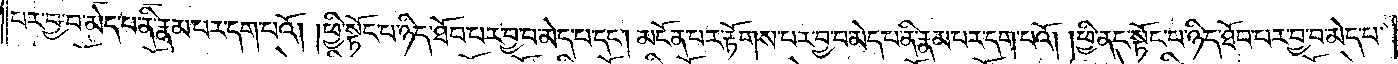པར་བྱ་བ་མེད་པ་ནི་རྣམ་པར་དག་པའོ། །ཕྱི་སྟོང་པ་ཉིད་ཐོབ་པར་བྱ་བ་མེད་པ་དང༌། མངོན་པར་རྟོགས་པར་བྱ་བ་མེད་པ་ནི་རྣམ་པར་དག་པའོ། །ཕྱི་ནང་སྟོང་པ་ཉིད་ཐོབ་པར་བྱ་བ་མེད་པ་
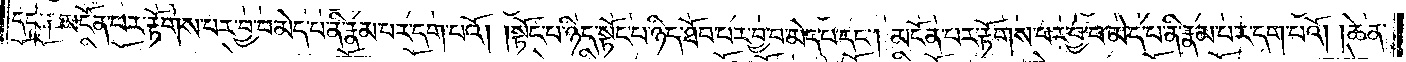དང་༑ མངོན་པར་རྟོགས་པར་བྱ་བ་མེད་པ་ནི་རྣམ་པར་དག་པའོ། །སྟོང་པ་ཉིད་སྟོང་པ་ཉིད་ཐོབ་པར་བྱ་བ་མེད་པ་དང༌། མངོན་པར་རྟོགས་པར་བྱ་བ་མེད་པ་ནི་རྣམ་པར་དག་པའོ། །ཆེན་
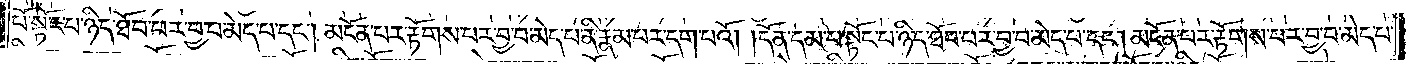པོ་སྟོང་པ་ཉིད་ཐོབ་པར་བྱ་བ་མེད་པ་དང༌། མངོན་པར་རྟོགས་པར་བྱ་བ་མེད་པ་ནི་རྣམ་པར་དག་པའོ། །དོན་དམ་པ་སྟོང་པ་ཉིད་ཐོབ་པར་བྱ་བ་མེད་པ་དང༌། མངོན་པར་རྟོགས་པར་བྱ་བ་མེད་པ་
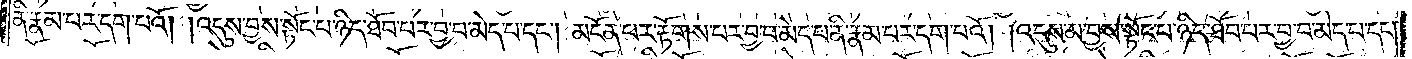ནི་རྣམ་པར་དག་པའོ། །འདུས་བྱས་སྟོང་པ་ཉིད་ཐོབ་པར་བྱ་བ་མེད་པ་དང༌། མངོན་པར་རྟོགས་པར་བྱ་བ་མེད་པ་ནི་རྣམ་པར་དག་པའོ། །འདུས་མ་བྱས་སྟོང་པ་ཉིད་ཐོབ་པར་བྱ་བ་མེད་པ་དང༌།
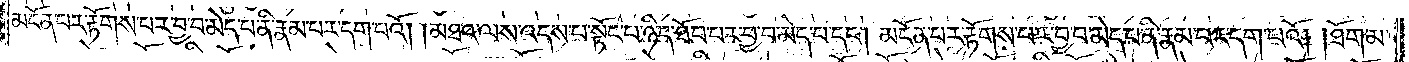མངོན་པར་རྟོགས་པར་བྱ་བ་མེད་པ་ནི་རྣམ་པར་དག་པའོ། །མཐའ་ལས་འདས་པ་སྟོང་པ་ཉིད་ཐོབ་པར་བྱ་བ་མེད་པ་དང༌། མངོན་པར་རྟོགས་པར་བྱ་བ་མེད་པ་ནི་རྣམ་པར་དག་པའོ། །ཐོག་མ་
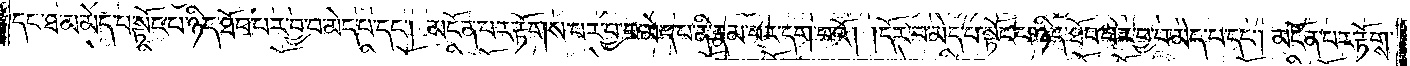དང་ཐ་མ་མེད་པ་སྟོང་པ་ཉིད་ཐོབ་པར་བྱ་བ་མེད་པ་དང༌། མངོན་པར་རྟོགས་པར་བྱ་བ་མེད་པ་ནི་རྣམ་པར་དག་པའོ། །དོར་བ་མེད་པ་སྟོང་པ་ཉིད་ཐོབ་པར་བྱ་བ་མེད་པ་དང༌། མངོན་པར་རྟོགས་
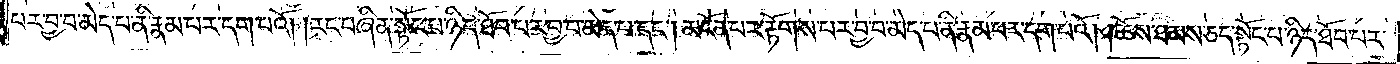པར་བྱ་བ་མེད་པ་ནི་རྣམ་པར་དག་པའོ། །རང་བཞིན་སྟོང་པ་ཉིད་ཐོབ་པར་བྱ་བ་མེད་པ་དང༌། མངོན་པར་རྟོགས་པར་བྱ་བ་མེད་པ་ནི་རྣམ་པར་དག་པའོ། །ཆོས་ཐམས་ཅད་སྟོང་པ་ཉིད་ཐོབ་པར་
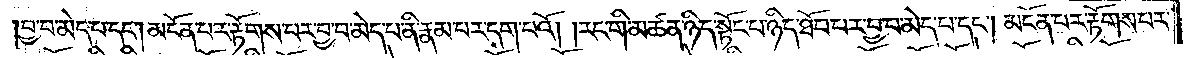བྱ་བ་མེད་པ་དང༌། མངོན་པར་རྟོགས་པར་བྱ་བ་མེད་པ་ནི་རྣམ་པར་དག་པའོ། །རང་གི་མཚན་ཉིད་སྟོང་པ་ཉིད་ཐོབ་པར་བྱ་བ་མེད་པ་དང༌། མངོན་པར་རྟོགས་པར་
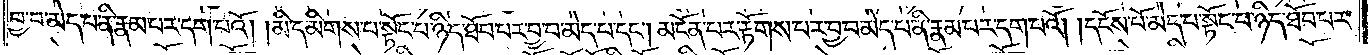བྱ་བ་མེད་པ་ནི་རྣམ་པར་དག་པའོ། །མི་དམིགས་པ་སྟོང་པ་ཉིད་ཐོབ་པར་བྱ་བ་མེད་པ་དང༌། མངོན་པར་རྟོགས་པར་བྱ་བ་མེད་པ་ནི་རྣམ་པར་དག་པའོ། །དངོས་པོ་མེད་པ་སྟོང་པ་ཉིད་ཐོབ་པར་
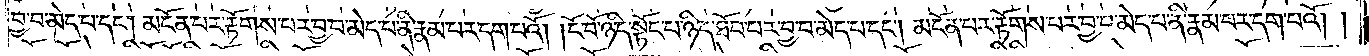བྱ་བ་མེད་པ་དང༌། མངོན་པར་རྟོགས་པར་བྱ་བ་མེད་པ་ནི་རྣམ་པར་དག་པའོ། །ངོ་བོ་ཉིད་སྟོང་པ་ཉིད་ཐོབ་པར་བྱ་བ་མེད་པ་དང༌། མངོན་པར་རྟོགས་པར་བྱ་བ་མེད་པ་ནི་རྣམ་པར་དག་པའོ། །
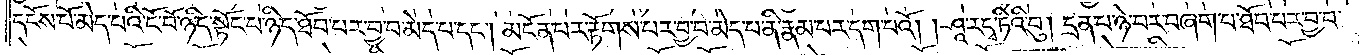དངོས་པོ་མེད་པའི་ངོ་བོ་ཉིད་སྟོང་པ་ཉིད་ཐོབ་པར་བྱ་བ་མེད་པ་དང༌། མངོན་པར་རྟོགས་པར་བྱ་བ་མེད་པ་ནི་རྣམ་པར་དག་པའོ། །ཤཱ་རདྭ་ཏིའི་བུ། དྲན་པ་ཉེ་བར་བཞག་པ་ཐོབ་པར་བྱ་བ་
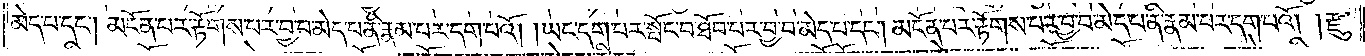མེད་པ་དང༌། མངོན་པར་རྟོགས་པར་བྱ་བ་མེད་པ་ནི་རྣམ་པར་དག་པའོ། །ཡང་དག་པར་སྤོང་པ་ཐོབ་པར་བྱ་བ་མེད་པ་དང༌། མངོན་པར་རྟོགས་པར་བྱ་བ་མེད་པ་ནི་རྣམ་པར་དག་པའོ། །རྫུ་
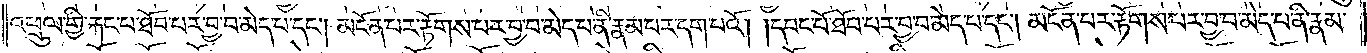འཕྲུལ་གྱི་རྐང་པ་ཐོབ་པར་བྱ་བ་མེད་པ་དང༌། མངོན་པར་རྟོགས་པར་བྱ་བ་མེད་པ་ནི་རྣམ་པར་དག་པའོ། །དབང་པོ་ཐོབ་པར་བྱ་བ་མེད་པ་དང༌། མངོན་པར་རྟོགས་པར་བྱ་བ་མེད་པ་ནི་རྣམ་
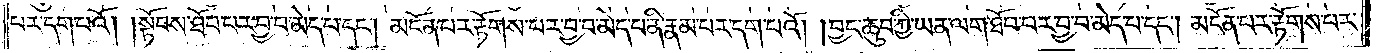པར་དག་པའོ། །སྟོབས་ཐོབ་པར་བྱ་བ་མེད་པ་དང༌། མངོན་པར་རྟོགས་པར་བྱ་བ་མེད་པ་ནི་རྣམ་པར་དག་པའོ། །བྱང་ཆུབ་ཀྱི་ཡན་ལག་ཐོབ་པར་བྱ་བ་མེད་པ་དང༌། མངོན་པར་རྟོགས་པར་
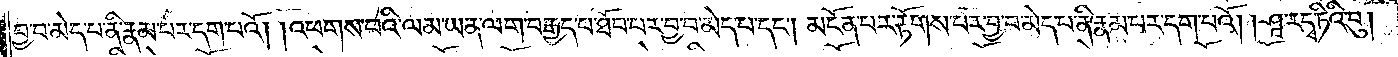བྱ་བ་མེད་པ་ནི་རྣམ་པར་དག་པའོ། །འཕགས་པའི་ལམ་ཡན་ལག་བརྒྱད་པ་ཐོབ་པར་བྱ་བ་མེད་པ་དང༌། མངོན་པར་རྟོགས་པར་བྱ་བ་མེད་པ་ནི་རྣམ་པར་དག་པའོ། །ཤཱ་རདྭ་ཏིའི་བུ།
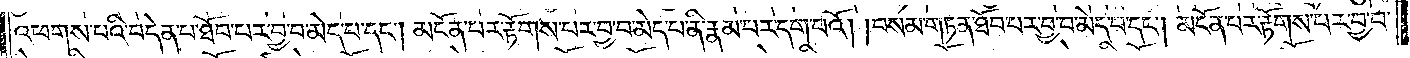འཕགས་པའི་བདེན་པ་ཐོབ་པར་བྱ་བ་མེད་པ་དང༌། མངོན་པར་རྟོགས་པར་བྱ་བ་མེད་པ་ནི་རྣམ་པར་དག་པའོ། །བསམ་གཏན་ཐོབ་པར་བྱ་བ་མེད་པ་དང༌། མངོན་པར་རྟོགས་པར་བྱ་བ་
